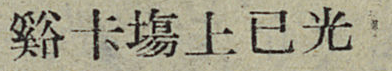谿卡塲上已光
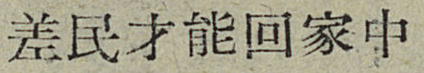差民才能回家中
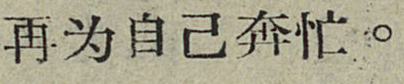再为自己奔忙。
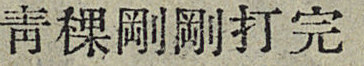靑稞剛剛打完
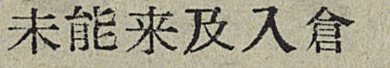未能来及入倉
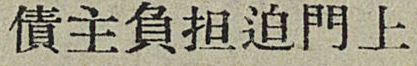債主負担迫門上
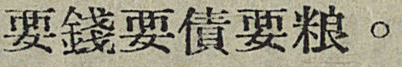要錢要債要粮。
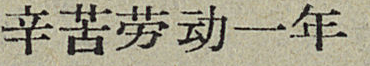辛苦劳动一年
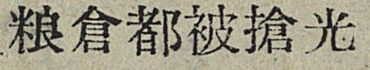粮倉都被搶光
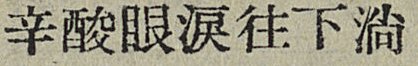辛酸眼淚往下淌
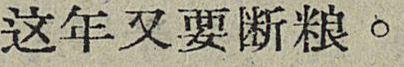这年又要断粮。
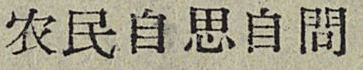农民自思自問
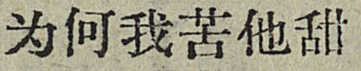为何我苦他甜
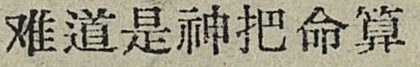难道是神把命算
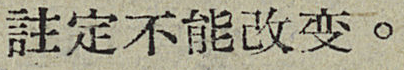註定不能改变。
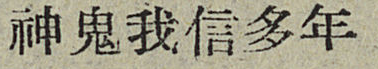神鬼我信多年
